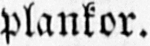plankor.
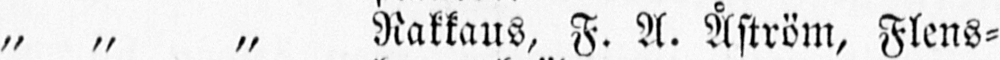„ „ „ Rakkaus, F. A. Åström, Flens-
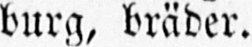burg, bräder.
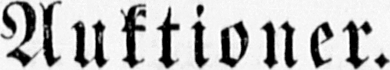Auktioner.
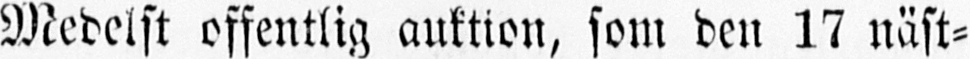Medelst offentlig auktion, som den 17 näst-
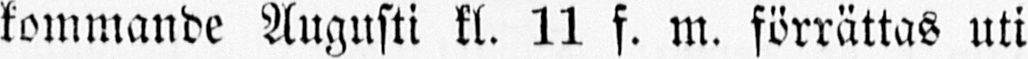kommande Angusti kl. 11 f. m. förrättas uti
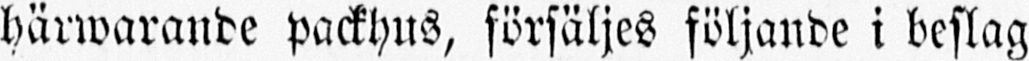härwarande packhus, försäljes följande i beslag
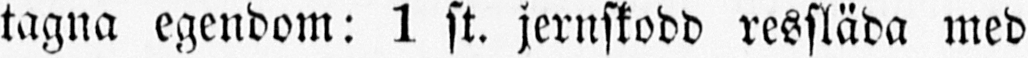tagna egendom: 1 st. jernskodd ressläda med
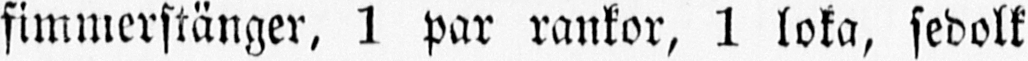fimmerstänger, 1 par rankor, 1 loka, sedolk
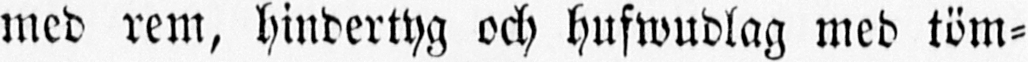med rem, hindertyg och hufwudlag med töm-
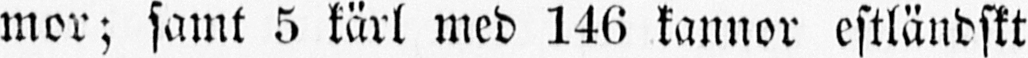mor; samt 5 kärl med 146 kannor estländskt
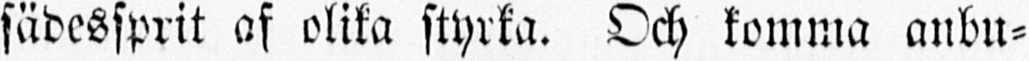sädessprit af olika styrka. Och komma anbu-
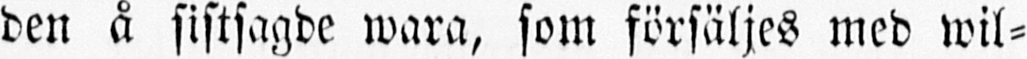den å sistsagde wara, som försäljes med wil-
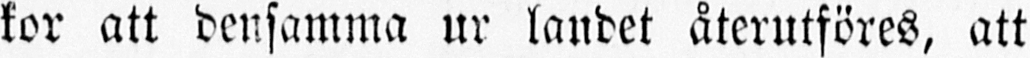kor att densamma ur landet återutföres, att
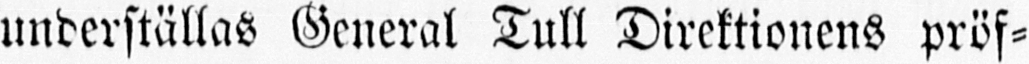underställas General Tull Direktionens pröf-
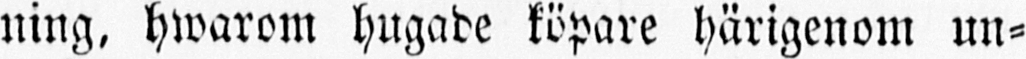ning, hwarom hugade köpare härigenom un-
